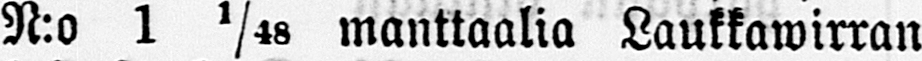N:o 1 1/48 manttaalia Laukkawirran
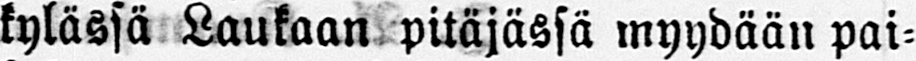kylässä Laukaan pitäjässä myydään pai-
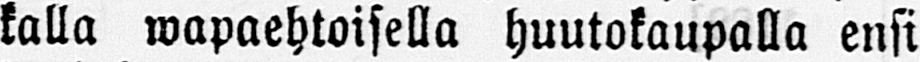kalla wapaehtoisella huutokaupalla ensi
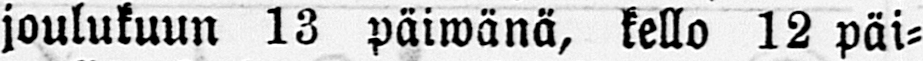joulukuun 13 päiwänä, kello 12 päi-
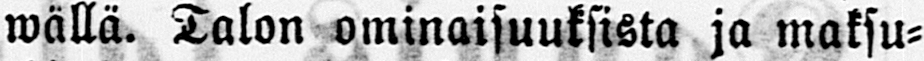wällä. Talon ominaisuuksista ja maksu-
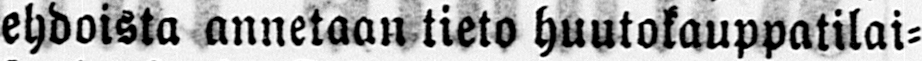ehdoista annetaan tieto huutokauppatilai-
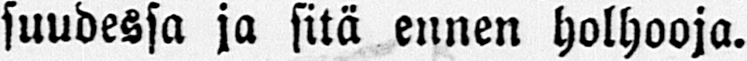suudessa ja sitä ennen holhooja.
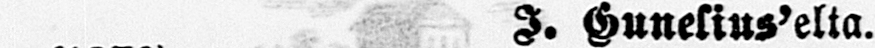I. Gunelius'elta.
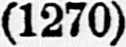(1270)
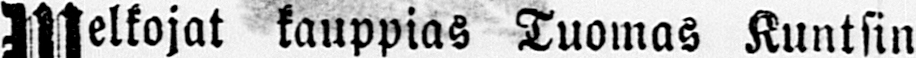Welkojat kauppias Tuomas Kuntsin
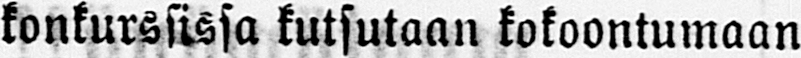konkurssissa kutsutaan kokoontumaan
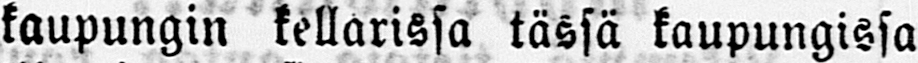kaupungin kellarissa tässä kaupungissa
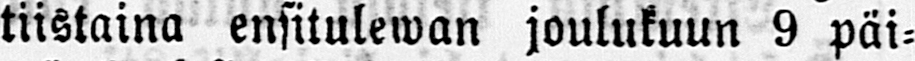tiistaina ensitulewan joulukuun 9 päi-
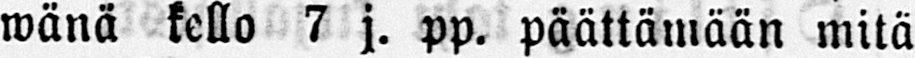wänä kello 7 j. pp. päättämään mitä
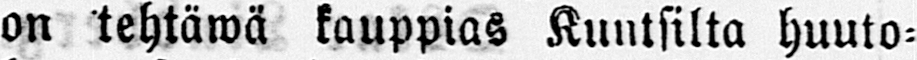on tehtäwä kauppias Kuntsilta huuto-
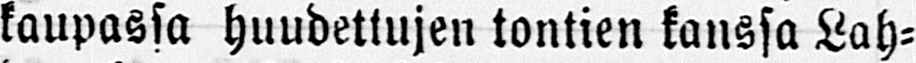kaupassa huudettujen tontien kanssa Lah-
